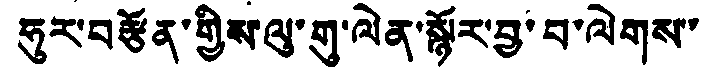ཧུར་བརྩོན་གྱིས་ལུ་གུ་ལེན་སྙོར་བྱ་བ་ལེགས་
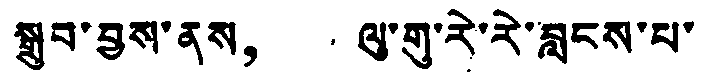སྒྲུབ་བྱས་ནས， ལུ་གུ་རེ་རེ་བླངས་པ་
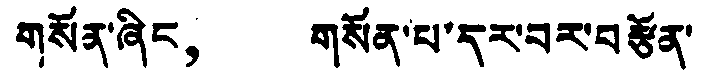གསོན་ཞིང， གསོན་པ་དར་བར་བརྩོན་
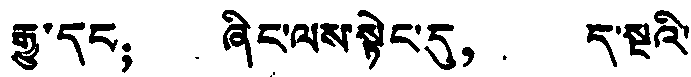རྒྱུ་དང； ཞིང་ལས་སྟེང་དུ， ད་སྔའི་
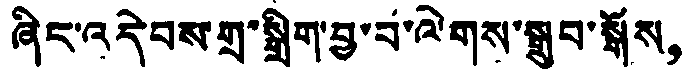ཞིང་འདེབས་གྲ་སྒྲིག་བྱ་བ་ལེགས་སྒྲུབ་སྒོས，
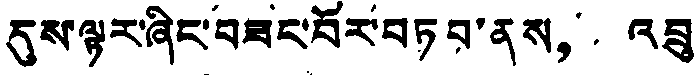དུས་ལྟར་ཞིང་བཟང་པོར་བཏབ་ནས， འབྲུ
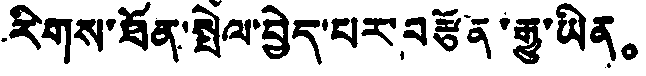རིགས་ཐོན་སྤེལ་བྱེད་པར་བརྩོན་རྒྱུ་ཡིན。
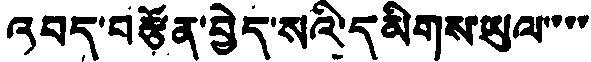འབད་བརྩོན་བྱེད་སའི་དམིགས་ཡུལ་་་་
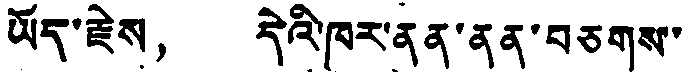ཡོད་རྗེས， དེའི་ཁར་ནན་ནན་བཅགས་
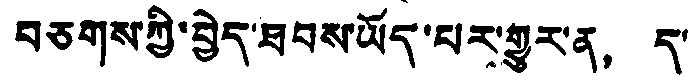བཅགས་ཀྱི་བྱེད་ཐབས་ཡོད་པར་གྱུར་ན， ད་
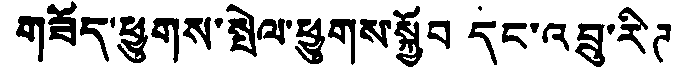གཟོད་ཕྱུགས་སྤེལ་ཕྱུགས་སྐྱོབ དང་འབྲུ་རིཊ
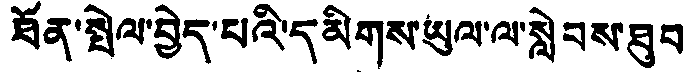ཐོན་སྤེལ་བྱེད་པའི་དམིགས་ཡུལ་ལ་སླེབས་ཐུབ
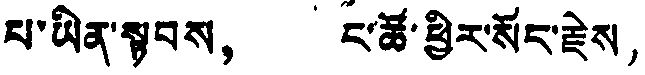པ་ཡིན་སྟབས， ང་ཚོ་ཕྱིར་སོང་རྗེས，
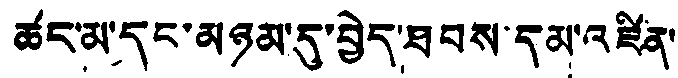ཚང་མ་དང་མཉམ་དུ་བྱེད་ཐབས་དམ་འཛིན་
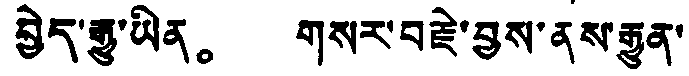བྱེད་རྒྱུ་ཡོན。 གསར་བརྗེ་བྱས་ནས་རྒྱུན་
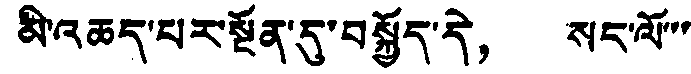མི་འཆད་པར་སྔོན་དུ་བསྐྱོད་དེ， སང་ལོ་་་
